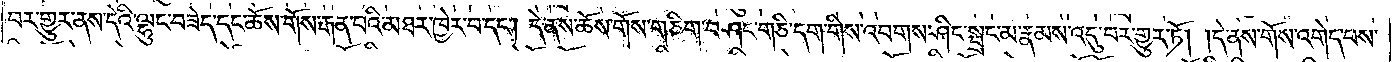བར་གྱུར་ནས་དེའི་ལྷུང་བཟེད་དང་ཆོས་གོས་རྒན་པའི་མཐར་ཁྱེར་བ་དང༌། དེ་ནས་ཆོས་གོས་གཅིག་བཤང་གཅི་དག་གིས་འབགས་ཤིང་སྦྲང་མ་རྣམས་འདུ་བར་གྱུར་ཏོ། །དེ་ནས་གོས་འགེད་པས་
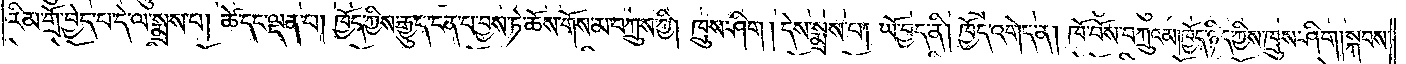རིམ་གྲོ་བྱེད་པ་དེ་ལ་སྨྲས་པ། ཚེ་དང་ལྡན་པ། ཁྱོད་ཀྱིས་རྒྱུད་ངན་པ་བྱས་ཏེ་ཆོས་གོས་མ་བཀྲུས་ཀྱི། ཁྲུས་ཤིག། དེས་སྨྲས་པ། ཡོ་བྱད་ནི། ཁྱོད་འགེད་ན། ཁོ་བོས་བཀྲུའམ། ཁྱོད་ཉིད་ཀྱིས་ཁྲུས་ཤིག། སྐབས་
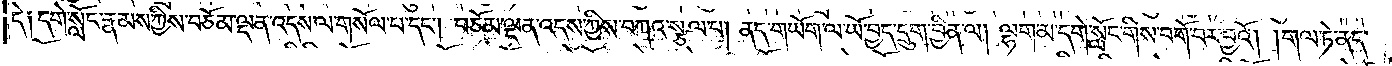དེ༑ དགེ་སློང་རྣམས་ཀྱིས་བཅོམ་ལྡན་འདས་ལ་གསོལ་པ་དང༌། བཅོམ་ལྡན་འདས་ཀྱིས་བཀའ་སྩལ་པ། ནད་གཡོག་ལ་ཡོ་བྱད་དྲུག་བྱིན་ལ། ལྷག་མ་དགེ་སློང་གིས་བགོ་བར་བྱའོ། །གལ་ཏེ་ནད་
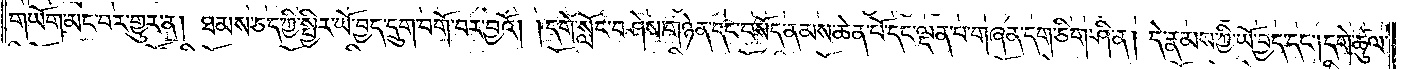གཡོག་མང་བར་གྱུར་ན། ཐམས་ཅད་ཀྱི་སྤྱིར་ཡོ་བྱད་དྲུག་བགོ་བར་བྱའོ། །དགེ་སློང་བཤེས་གཉེན་དང་བསོད་ནམས་ཆེན་པོ་དང་ལྡན་པ་གཞན་དག་ཅིག་ཤི་ན། དེ་རྣམས་ཀྱི་ཡོ་བྱད་དང༌། དགེ་ཚུལ་
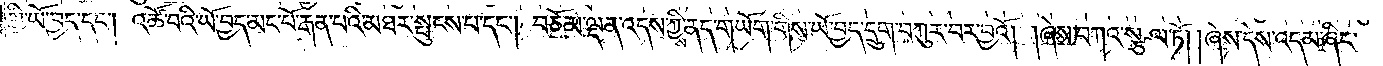གྱི་ཡོ་བྱད་དང༌། འཚོ་བའི་ཡོ་བྱད་མང་པོ་རྒན་པའི་མཐར་སྤུངས་པ་དང༌། བཅོམ་ལྡན་འདས་ཀྱི་ནད་གཡོག་གིས་ཡོ་བྱད་དྲུག་བཀུར་བར་བྱའོ། །ཞེས་བཀའ་སྩལ་ཏོ། །ཞེས་དེས་འདམ་ཞིང་
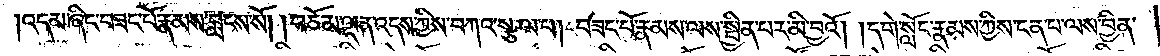འདམ་ཞིང་བཟང་པོ་རྣམས་བླངས་སོ། །བཅོམ་ལྡན་འདས་ཀྱིས་བཀའ་སྩལ་པ། བཟང་པོ་རྣམས་ལས་སྦྱིན་པར་མི་བྱའོ། །དགེ་སློང་རྣམས་ཀྱིས་ངན་པ་ལས་བྱིན་
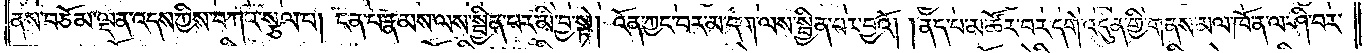ནས་བཅོམ་ལྡན་འདས་ཀྱིས་བཀའ་སྩལ་པ། ངན་པ་རྣམས་ལས་སྦྱིན་པར་མི་བྱ་སྟེ། འོན་ཀྱང་བར་མ་དག་ལས་སྦྱིན་པར་བྱའོ། །ནད་པ་མ་ཚོར་བར་དགེ་འདུན་གྱི་གནས་མལ་ཁོ་ན་ལ་ཤི་བར་
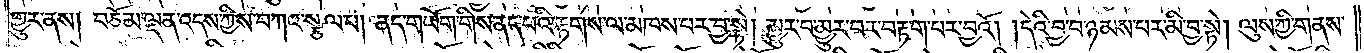གྱུར་ནས། བཅོམ་ལྡན་འདས་ཀྱིས་བཀའ་སྩལ་པ། ནད་གཡོག་གིས་ནད་པའི་རྟགས་ལ་མཁས་པར་བྱ་སྟེ། མྱུར་བ་མྱུར་བར་བརྟག་པར་བྱའོ། །དེའི་བྱ་བ་ཉམས་པར་མི་བྱ་སྟེ། ལུས་ཀྱི་གནས་
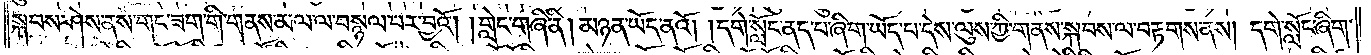སྐབས་ཤེས་ནས་གང་ཟག་གི་གནས་མལ་ལ་བསྙལ་བར་བྱའོ། །གླེང་གཞི་ནི། མཉན་ཡོད་ནའོ། །དགེ་སློང་ནད་པ་ཞིག་ཡོད་པ་དེས་ལུས་ཀྱི་གནས་སྐབས་ལ་བརྟགས་ནས། དགེ་སློང་ཞིག་
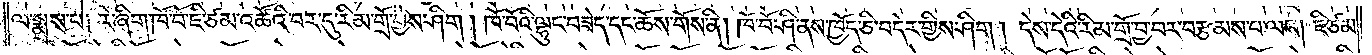ལ་སྨྲས་པ། རེ་ཞིག་ཁོ་བོ་ཇི་ཙམ་འཚོའི་བར་དུ་རིམ་གྲོ་གྱིས་ཤིག། ཁོ་བོའི་ལྷུང་བཟེད་དང་ཆོས་གོས་ནི། ཁོ་བོ་ཤི་ནས་ཁྱོད་ཅི་བདེར་གྱིས་ཤིག། དེས་དེའི་རིམ་གྲོ་བྱ་བར་བརྩམས་པ་ལས། ཇི་ཙམ་
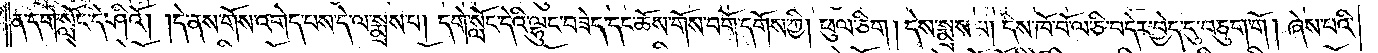ན་དགེ་སློང་དེ་ཤིའོ། །དེ་ནས་གོས་འགེད་པས་དེ་ལ་སྨྲས་པ། དགེ་སློང་དེའི་ལྷུང་བཟེད་དང་ཆོས་གོས་བགོ་དགོས་ཀྱི། ཕུལ་ཅིག། དེས་སྨྲས་པ། དེས་ཁོ་བོ་ལ་ཅི་བདེར་བྱེད་དུ་བཅུག་གོ། ཞེས་པའི་
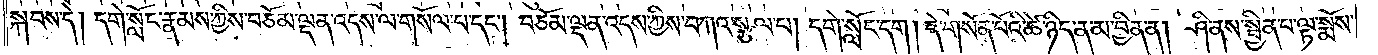སྐབས་དེ། དགེ་སློང་རྣམས་ཀྱིས་བཅོམ་ལྡན་འདས་ལ་གསོལ་པ་དང༌། བཅོམ་ལྡན་འདས་ཀྱིས་བཀའ་སྩལ་པ། དགེ་སློང་དང༌། དེ་གསོན་པོའི་ཚེ་ཉིད་ན་མ་བྱིན་ན། ཤི་ནས་སྦྱིན་པ་ལྟ་སྨོས་
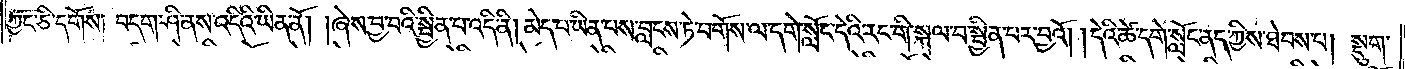ཀྱང་ཅི་དགོས། བདག་ཤི་ནས་འདིའི་ཡིན་ནོ། །ཞེས་བྱ་བའི་སྦྱིན་པ་འདི་ནི། མེད་པ་ཡིན་པས་བླངས་ཏེ་བགོས་ལ་དགེ་སློང་དེའི་རང་གི་སྐལ་བ་སྦྱིན་པར་བྱའོ། །དེའི་ཚེ་དགེ་སློང་ནད་ཀྱིས་ཐེབས་པ། སྡུག་
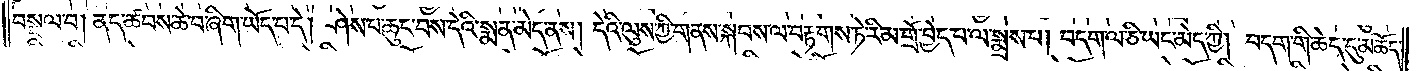བསྔལ་བ། ནད་ཚབས་ཆེ་བ་ཞིག་ཡོད་པ་དེ། ཤེས་པ་ཆུང་བས་དེའི་སྨན་མེད་ནས། དེའི་ལུས་ཀྱི་གནས་སྐབས་ལ་བརྟགས་ཏེ་རིམ་གྲོ་བྱེད་པ་ལ་སྨྲས་པ། བདག་ལ་ཅི་ཡང་མེད་ཀྱི། བདག་གི་ཆེད་དུ་མཆོད་
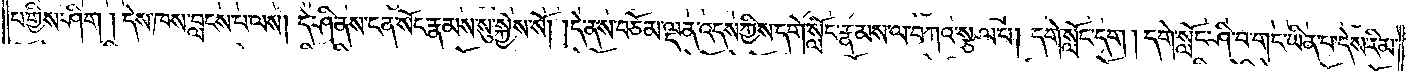པ་གྱིས་ཤིག། དེས་ཁས་བླངས་པ་ལས། དེ་ཤི་ནས་ངན་སོང་རྣམས་སུ་སྐྱེས་སོ། །དེ་ནས་བཅོམ་ལྡན་འདས་ཀྱིས་དགེ་སློང་རྣམས་ལ་བཀའ་སྩལ་པ། དགེ་སློང་དག། དགེ་སློང་ཤི་བ་གང་ཡིན་པ་དེས་རིམ་
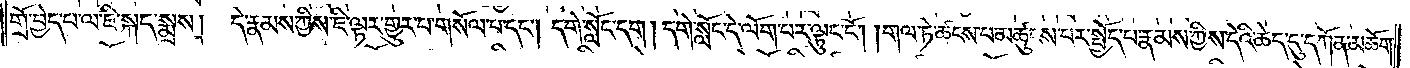གྲོ་བྱེད་པ་ལ་ཇི་སྐད་སྨྲས། དེ་རྣམས་ཀྱིས་ཇི་ལྟར་གྱུར་པ་གསོལ་བ་དང༌། དགེ་སློང་དག། དགེ་སློང་དེ་ལོག་པར་ལྟུང་ངོ༌། །གལ་ཏེ་ཚངས་པ་མཚུངས་པར་སྤྱོད་པ་རྣམས་ཀྱིས་དེའི་ཆེད་དུ་དཀོན་མཆོག་
